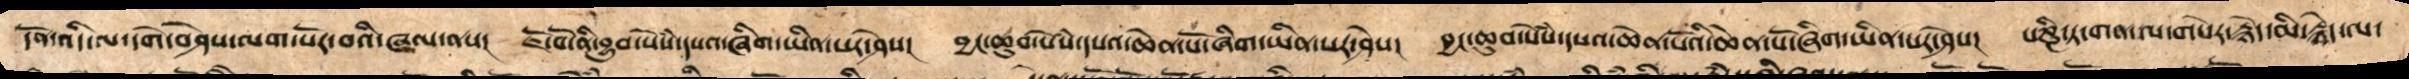དོན་འདི་ལ་དགེ་བཤེས་ལག་སོར་བའི་ཞལ་ནས།   ཇོ་བོ་ནི་བྱུབ་སེཾས་དཔའ་ཞིག་ཡིན་པར་ཤེས།   བྱང་ཆུབ་སེཾས་དཔའ་ཆེན་པོ་ཞིག་ཡིན་པར་ཤེས།  བྱང་ཆུབ་སེཾས་དཔའ་ཆེན་པོའི་ཆེན་པོ་ཞིག་ཡིན་པར་ཤེས།  པཎྜི་ཏ་གན་ལ་གསེར་རྙེད་མི་རྙེད་ལ་
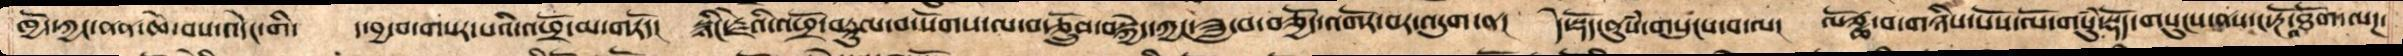ཁྱེད་ཀྱང་ནན་ཆེ་བས་འདེང་གི། ད་བྱ་བ་གསར་པའི་འཕྲོ་མ་གཏོད། སྙིང་རྗེའི་འཕྲོ་བསྡུལ་བ་སོགས་ལ་བརྩྲོུསབསྐྱེད་ཀྱང་ཟླ་བ་བཅྱོད་འགོར་བར་འདུག་ན། དེ་སྡོད་ནུསཾ་གསུངས་བ་ལ། ལོཙྪ་བ་གཉིས་པོས་ལོ་གསུཾ་སྡོད་གསུངས་ནས་ང་རྔོ་འཐོགལཌ་
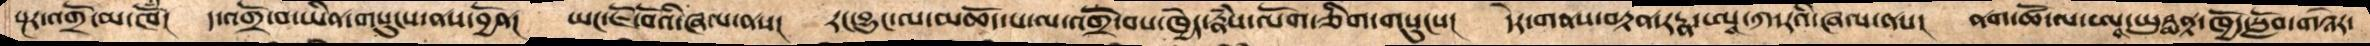སྔར་འགྲོ་མ་ཁོཾ།    ད་འགྲོ་བ་ཡིན་གསུངས་ནས་བྱོན།   ཡང་ཇོ་བོའི་ཞལ་ནས།   རང་བྱུང་ལ་མཆོད་པ་ལ་འགྲོ་བས་ཁྱེད་རྣཾས་ལོག་ཅིག་གསུངས།    དེར་གནས་བརྟན་རཏྣ་ཨཱ་ཀརའི་ཞལ་ནས།   ནག་ཚོ་ལ་ཨཱ་ཡུཤྨནྟ་ཁྱོད་སློབ་གཉེར་
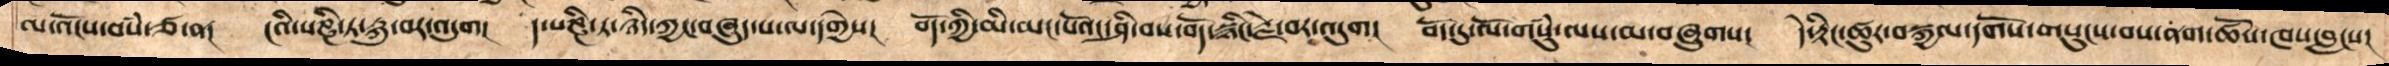ལ་འོངས་བསཾ་ཙ་ན།  ངའི་པཎྜི་ཏ་རྐུ་བར་འདུག།   ད་པཎྜི་ཏ་ཉིད་ཀྱང་བཞུད་པ་ལ་དགྱེས།  བོད་ཀྱི་མི་མང་པོའང་ཤི་བས་བོད་སྙིང་རྗེ་བར་འདུག།    བོད་དུ་ལོ་གསུཾ་ལས་མ་བཞུགས།  དེ་རྟིང་ཚུར་བསྐྱལ་དགོས་གསུངས་བས་ནག་ཚོས་ཁས་བླངས།
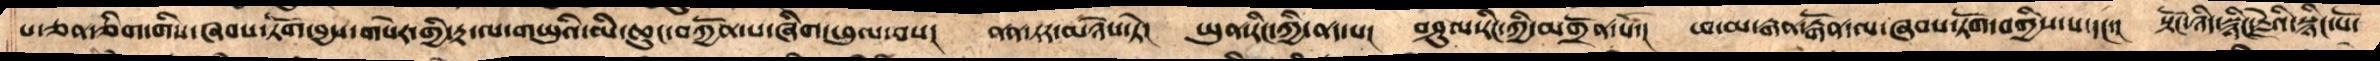པ་ཅན་ཅིག་གིས་ཞབས་ཏོག་བྱས་གསེར་གྱི་རྟ་ལ་གཡུའི་མི་ཆུང་བཀྱོན་པ་ཞིག་ཕུལ་བས།   ནན་ཏར་མཉེས་ཏེ།   ཡུན་རིང་ཀྱི་ནད་པ།  བཤུལ་རིང་ཀྱི་འགྲོན་པོ།  ཕ་མ་རྒན་རྒོན་ལ་ཞབས་ཏོག་བགྱིས་པ་དང་།  སྟོང་ཉིད་སྙིང་རྗེའི་སྙིང་པོ་
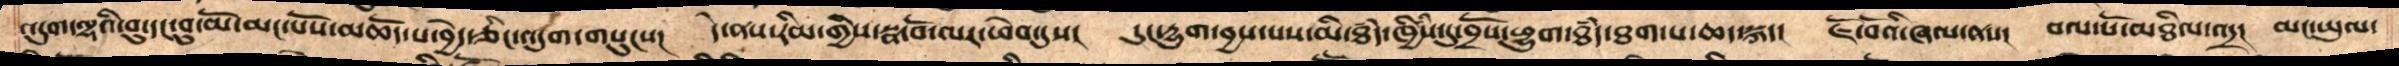འདུག་ལྷའི་བུ་དང་བུ་མོ་མང་པོས་མཆོད་པ་བྱེད་ཀྱི་འདུག་གསུངས།   དེ་ནས་རིམ་གྱིས་སྣ་བོ་ལར་ཕེབ་དུས།   དུང་དྱུག་བྱས་པས་མི་ཐཾད་ཁྱིཾས་དུ་བྲོས་ཕྱུག་ཐཾད་ཐག་པ་ཆད་སྐད ཇོ་བོའི་ཞལ་ནས།   བལ་པོ་མཐིལ་འདྲ།་ མང་ཡུལ་
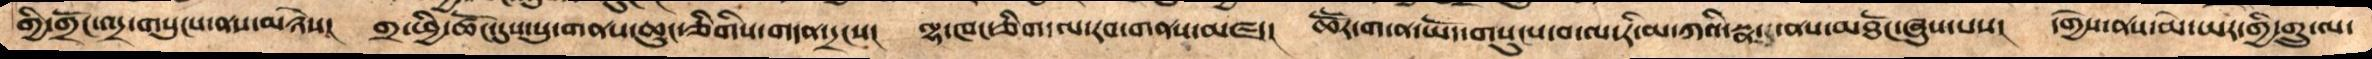གྱི་གྲོང་འདྲ་གསུངས་ནས་མཉེས།   གྲ་ཕྱི་ཚོང་དུས་སུ་གནས་ཆུང་ཅིགིས་གདན་དྲངས།   ལྷ་ཁང་ཅིག་ལ་རབ་གནས་མཛད།   ཆཽར་ག་ན་ཡོད་གསུང་བ་ལ་རི་མ་ཀིའི་སྣ་ནས་མཐོང་ཞུས་པས།   དགྱེས་ནས་མེ་ཡར་གྱི་གྲུ་ལ་
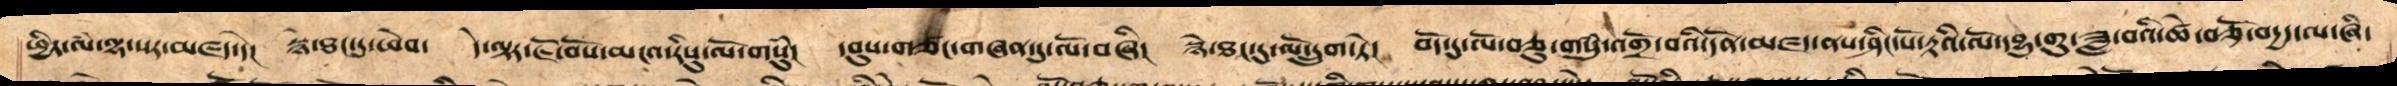ཕྱིར་ལཾ་ལྷ་སར་མཛད་དེ།   སྙེ་ཐང་དུ་ཕེབ།   དེ་ལྟར་ཇོ་བོས་མངའ་རིསུ་ལོ་གསུཾ།   དབུས་གཙང་གཞན་དུ་ལོ་བཞི།  སྙེ་ཐང་དུ་ལོ་དྲུག་ཏེ།  བོད་དུ་ལོ་བཅུ་གསུཾ་འགྲོ་བའི་དོན་མཛད་ནས་ཤིང་པོ་རྟའི་ལོ་དབྱུ་གུ་ཟླ་བའི་ཚེས་བཅོ་བདྱད་ལ་ཞི་
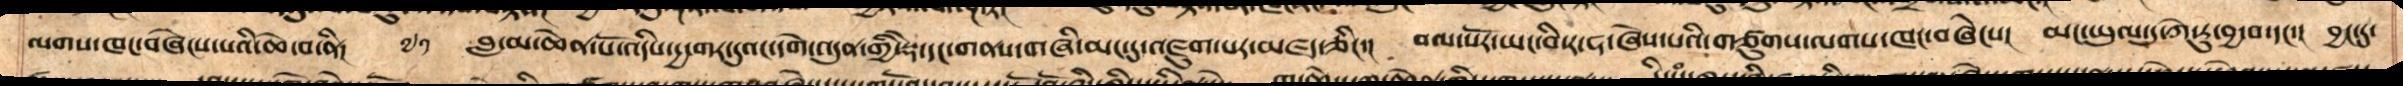ལགས་ཁང་བཞེངས་པའི་ཆེ་བ་ནི། ༧༡ བླ་མ་ཆེན་པོ་འདིས་དྱ་་གར་དུའང་དགེ་འདུན་གྱི་སྡེ་དང་གནས་གཞི་མང་དུ་འཛུགས་པར་མཛད་ཅིང་། བལ་པོར་ཡང་བི་ར་ཧ་ཞེས་པའི་གཙུགས་ལགས་ཁང་བཞེངས། མང་ཡུལ་དུ་ཀེ་རུ་བྱ་བ་དང་། བྱང་དུ་
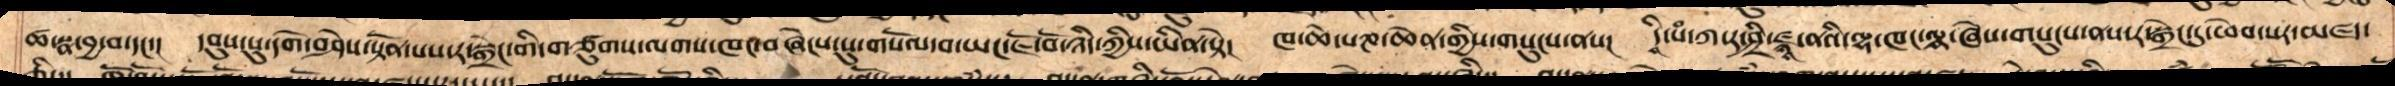ཚ་སྣ་བྱ་བ་དང་། དབུས་སུ་དགེ་བཤེས་སྟོན་པས་ར་སྒྲེང་གི་གཙུགས་ལགས་ཁང་བཞེངས་སུ་གསོལ་བ་ཡང་ཇོ་བོ་ཉིད་ཀྱིས་ཡིན་སྟེ། ཁ་ཆེ་པཎ་ཆེན་གྱི་གསུངས་ནས།  དཱི་སེྃ་ཀ་ར་ཤཱི་ཛྙཱ་ནའི་ལྷ་ཁང་ལྷ་ཞེས་གསུངས་ནས་ར་སྒྲེང་དུ་ཕེབ་པར་མཛད་
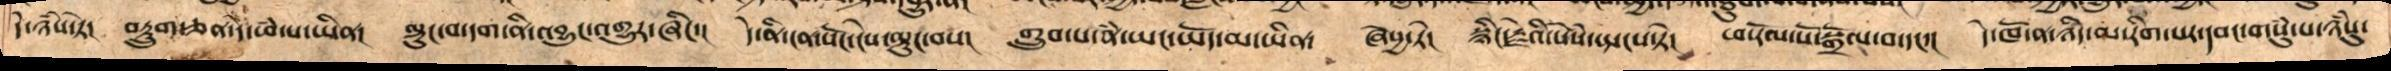དེ་ཉཾས་ཏེ་།  བརྟྲུག་ཅན་དེ་ཕཾ་པ་ཡིན་།  ལྟུང་བ་དག་ནི་འབྱུང་འགྱུར་ཞིང་།  དེ་ནི་ངན་སོང་ངེས་ལྟུང་བས།  གྲུབ་པ་ནཾ་ཡང་ཡོད་མ་ཡིན།  ཞེསྱ་ཏེ།  སྙིང་རྗེའི་སེཾས་སྤངས་སྟེ།  ཕ་རོལ་པོ་སྒྲོལ་བ་དང་།  དེ་ཁོ་ན་ཉིད་མ་རིག་པར་དབང་གསུཾ་པ་ཉཾསུ་
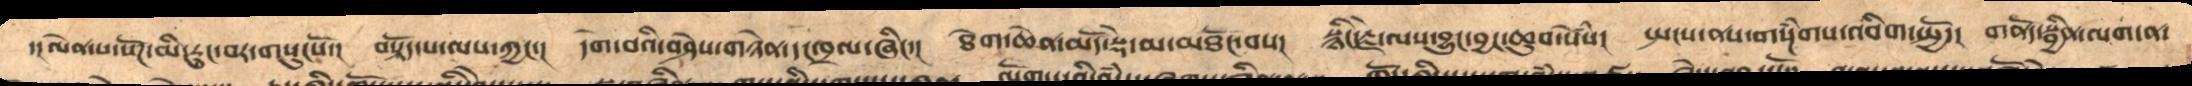དང ལེན་པ་སོཌ་མི་རུང་བར་གསུངསོ་།  བསྟོད་པ་ལས་ཀྱང་།  དགེ་བའི་བཤེས་གཉེན་དང་བྲལ་ཞིང་།  ཐེག་ཆེན་མདོ་སྡེ་མ་མཐོང་བས།  སྙིང་རྗེ་ལས་བྱུང་བྱང་ཆུབ་སེཾས།   སྤངས་ནས་གསྔཾགས་་འབིག་སྤྱོད།  གནོད་སྦྱིན་ལག་ན་
